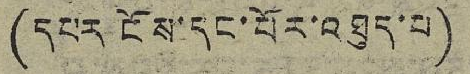(དཔར་ངོས་དང་པོར་འཐུད་པ)
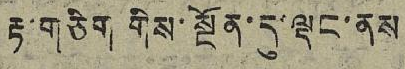རྟ་གཅིག གིས་སྔོན་དུ་ལྡང་ནས
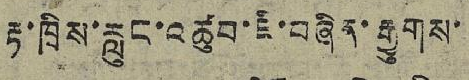རྟ་ཁྲིས་རླུང་འཚུབ་ཇི་བཞིན་རྒྱུགས་
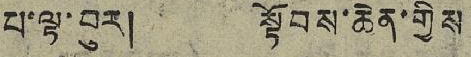པ་ལྟ་བུར། སྟོབས་ཆེན་གྱིས
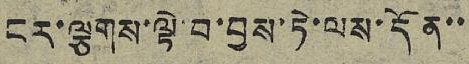ངར་ལྕགས་ལྟེ་བ་བྱས་ཏེ་ལས་དོན་་
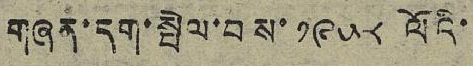གཞན་དག་སྤེལ་བས་ ༡༩༥༨ ལོའི་
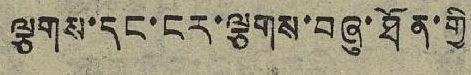ལྕགས་དང་ངར་ལྕགས་བཞུ་ཐོན་གྱི
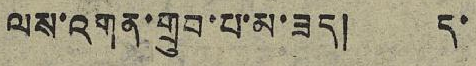ལས་འགན་གྲུབ་པ་མ་ཟད། ད་
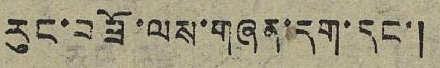རུང་བཟོ་ལས་གཞན་དག་དང་།
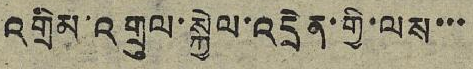འགྲིམ་འགྲུལ་སྐྱེལ་འདྲེན་གྱི་ལས་་་
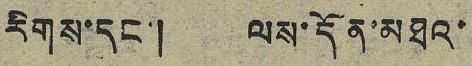རིགས་དང་། ལས་དོན་མཐའ་
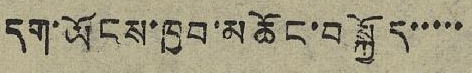དག་ཡོངས་ཁྱབ་མཆོང་བསྐྱོད་་་་་
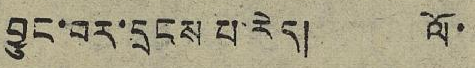བྱུང་བར་དྲངས་པ་རེད། ལོ་
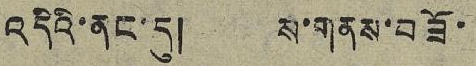འདིའི་ནང་དུ། ས་གནས་བཟོ་
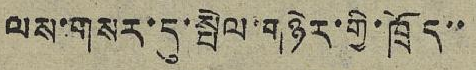ལས་གསར་དུ་སྤེལ་གཉེར་གྱི་ཁྲོད་་
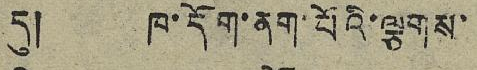དུ། ཁ་དོག་ནག་པོའི་ལྕགས་
